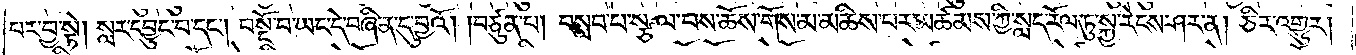པར་བྱ་སྟེ། སླར་དབྱུང་བ་དང༌། བསྔོ་བ་ཡང་དེ་བཞིན་དུ་བྱའོ། །བཙུན་པ། བསླབ་པ་སྩལ་བས་ཆོས་གོས་མ་མཆིས་པར་མཚམས་ཀྱི་སླད་རོལ་ཏུ་སྐྱ་རེངས་ཤར་ན། ཅིར་འགྱུར།
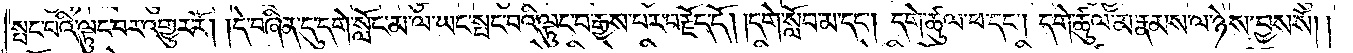སྤང་བའི་ལྟུང་བར་འགྱུར་རོ། །དེ་བཞིན་དུ་དགེ་སློང་མ་ལ་ཡང་སྤང་བའི་ལྟུང་བ་རྒྱས་པར་བརྗོད་དོ། །དགེ་སློབ་མ་དང༌། དགེ་ཚུལ་ཕ་དང༌། དགེ་ཚུལ་མ་རྣམས་ལ་ཉེས་བྱས་སོ།
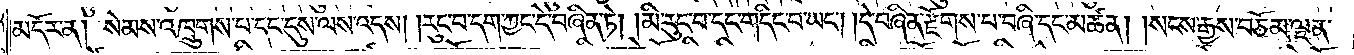མདོར་ན། སེམས་འཁྲུགས་པ་དང་དུས་ལས་འདས། །རུང་བ་དག་ཀྱང་དེ་བཞིན་ཏེ། །མི་རུང་བ་དང་གདིང་བ་ཡང༌། །དེ་བཞིན་རྫོགས་པ་བཞི་དང་མཚན། །སངས་རྒྱས་བཅོམ་ལྡན་
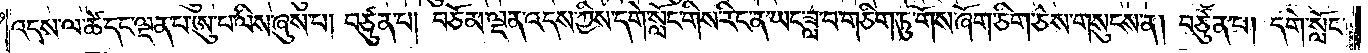འདས་ལ་ཚེ་དང་ལྡན་པ་ཨུ་པ་ལིས་ཞུས་པ། བཙུན་པ། བཅོམ་ལྡན་འདས་ཀྱིས་དགེ་སློང་གིས་རིང་ན་ཡང་ཟླ་བ་གཅིག་ཏུ་གོས་ཞོག་ཅིག་ཅེས་གསུངས་ན། བཙུན་པ། དགེ་སློང་
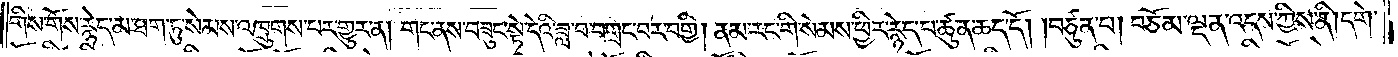གིས་གོས་རྙེད་མ་ཐག་ཏུ་སེམས་འཁྲུགས་པར་གྱུར་ན། གང་ནས་བཟུང་སྟེ་དེའི་ཟླ་བ་བགྲང་བར་བགྱི། ནམ་རང་གི་སེམས་ཕྱིར་རྙེད་པ་ཚུན་ཆད་དོ། །བཙུན་པ། བཅོམ་ལྡན་འདས་ཀྱིས་ནི། དགེ་
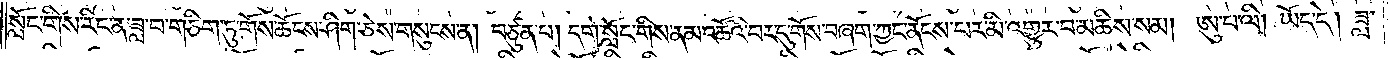སློང་གིས་རིང་ན་ཟླ་བ་གཅིག་ཏུ་གོས་ཆོངས་ཤིག་ཅེས་གསུངས་ན། བཙུན་པ། དགེ་སློང་གིས་ནམ་འཚོའི་བར་དུ་གོས་བཞག་ཀྱང་ནོངས་པར་མི་འགྱུར་བ་མཆིས་སམ། ཨུ་པ་ལི། ཡོད་དེ། ཟླ་
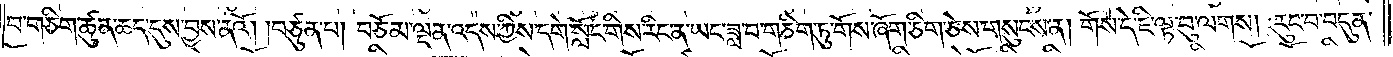བ་གཅིག་ཚུན་ཆད་དུས་བྱས་ནའོ། །བཙུན་པ། བཅོམ་ལྡན་འདས་ཀྱིས་དགེ་སློང་གིས་རིང་ན་ཡང་ཟླ་བ་གཅིག་ཏུ་གོས་ཞོག་ཅིག་ཅེས་གསུངས་ན། གོས་དེ་ཇི་ལྟ་བུ་ལགས། རུང་བ་བདུན་
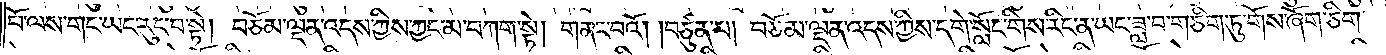པོ་ལས་གང་ཡང་རུང་བ་སྟེ། བཅོམ་ལྡན་འདས་ཀྱིས་ཀྱང་མ་བཀག་སྟེ། གནང་བའོ། །བཙུན་པ། བཅོམ་ལྡན་འདས་ཀྱིས་དགེ་སློང་གིས་རིང་ན་ཡང་ཟླ་བ་གཅིག་ཏུ་གོས་ཞོག་ཅིག་
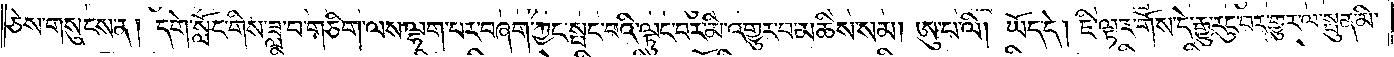ཅེས་གསུངས་ན། དགེ་སློང་གིས་ཟླ་བ་གཅིག་ལས་ལྷག་པར་བཞག་ཀྱང་སྤང་བའི་ལྟུང་བར་མི་འགྱུར་བ་མཆིས་སམ། ཨུ་པ་ལི། ཡོད་དེ། ཇི་ལྟར་གོས་དེ་རྒྱུ་རུང་བར་གྱུར་ལ་སྤུན་མི་
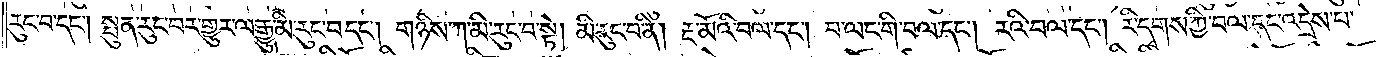རུང་བ་དང༌། སྤུན་རུང་བར་གྱུར་ལ་རྒྱུ་མི་རུང་བ་དང༌། གཉིས་ཀ་མི་རུང་བ་སྟེ། མི་རུང་བ་ནི། རྔ་མོའི་བལ་དང༌། བ་ལང་གི་བལ་དང༌། རའི་བལ་དང༌། རི་དྭགས་ཀྱི་བལ་དང་འདྲེས་པ་
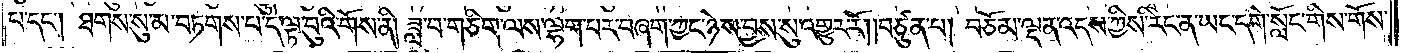པ་དང༌། ཐགས་སུ་མ་བཏགས་པ་དེ་ལྟ་བུའི་གོས་ནི། ཟླ་བ་གཅིག་ལས་ལྷག་པར་བཞག་ཀྱང་ཉེས་བྱས་སུ་འགྱུར་རོ། །བཙུན་པ། བཅོམ་ལྡན་འདས་ཀྱིས་རིང་ན་ཡང་དགེ་སློང་གིས་གོས་
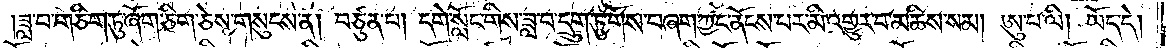ཟླ་བ་གཅིག་ཏུ་ཞོག་ཅིག་ཅེས་གསུངས་ན། བཙུན་པ། དགེ་སློང་གིས་ཟླ་བ་དྲུག་ཏུ་གོས་བཞག་ཀྱང་ནོངས་པར་མི་འགྱུར་བ་མཆིས་སམ། ཨུ་པ་ལི། ཡོད་དེ།
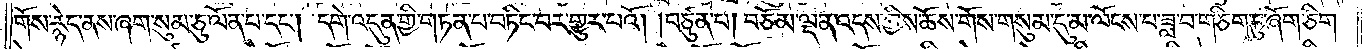གོས་རྙེད་ནས་ཞག་སུམ་ཅུ་ལོན་པ་དང༌། དགེ་འདུན་གྱི་གཏན་པ་བཏིང་པར་གྱུར་པའོ། །བཙུན་པ། བཅོམ་ལྡན་འདས་ཀྱིས་ཆོས་གོས་གསུམ་དུ་མ་ལོངས་པ་ཟླ་བ་གཅིག་ཏུ་ཞོག་ཅིག་
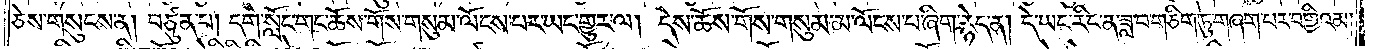ཅེས་གསུངས་ན། བཙུན་པ། དགེ་སློང་གང་ཆོས་གོས་གསུམ་ལོངས་པར་ཡང་གྱུར་ལ། དེས་ཆོས་གོས་གསུམ་མ་ལོངས་པ་ཞིག་རྙེད་ན། དེ་ཡང་རིང་ན་ཟླ་བ་གཅིག་ཏུ་གཞག་པར་བགྱིའམ།
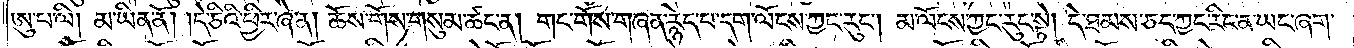ཨུ་པ་ལི། མ་ཡིན་ནོ། །དེ་ཅིའི་ཕྱིར་ཞེ་ན། ཆོས་གོས་གསུམ་ཚང་ན། གང་གོས་གཞན་རྙེད་པ་དག་ལོངས་ཀྱང་རུང༌། མ་ལོངས་ཀྱང་རུང་སྟེ། དེ་ཐམས་ཅད་ཀྱང་རིང་ན་ཡང་ཞག་
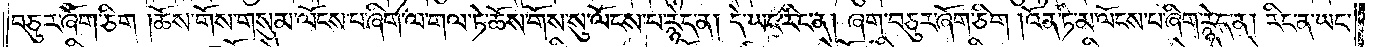བཅུར་ཞོག་ཅིག །ཆོས་གོས་གསུམ་ལོངས་པ་ཞིག་ལ་གལ་ཏེ་ཆོས་གོས་སུ་ལོངས་པ་རྙེད་ན། དེ་ཡང་རིང་ན། ཞག་བཅུར་ཞོག་ཅིག །འོན་ཏེ་མ་ལོངས་པ་ཞིག་རྙེད་ན། རིང་ན་ཡང་
